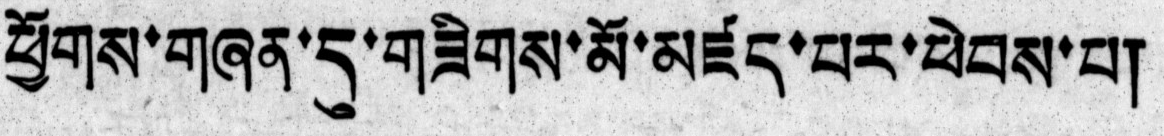ཕྱོགས་གཞན་དུ་གཟིགས་མོ་མཛད་པར་ཕེབས་པ།
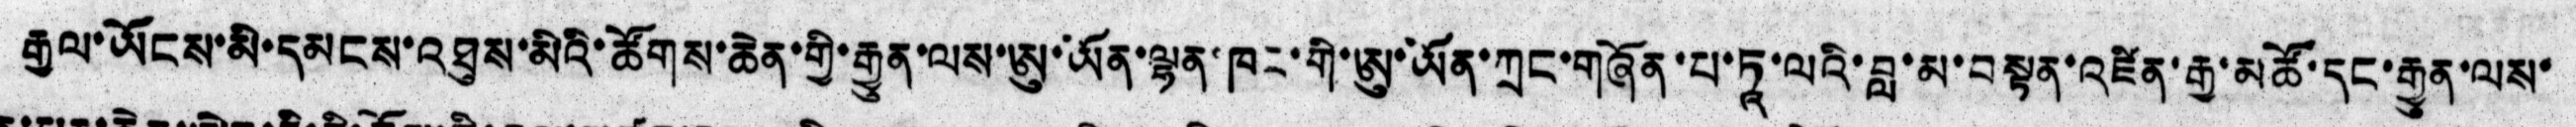རྒྱལ་ཡོངས་མི་དམངས་འཐུས་མིའི་ཚོགས་ཆེན་གྱི་རྒྱུན་ལས་ཨུ་ཡོན་ལྷན་ཁང་གི་ཨུ་ཡོན་ཀྲང་གཞོན་པ་ཏཱ་ལའི་བླ་མ་བསྟན་འཛིན་རྒྱ་མཚོ་དང་རྒྱུན་ལས་
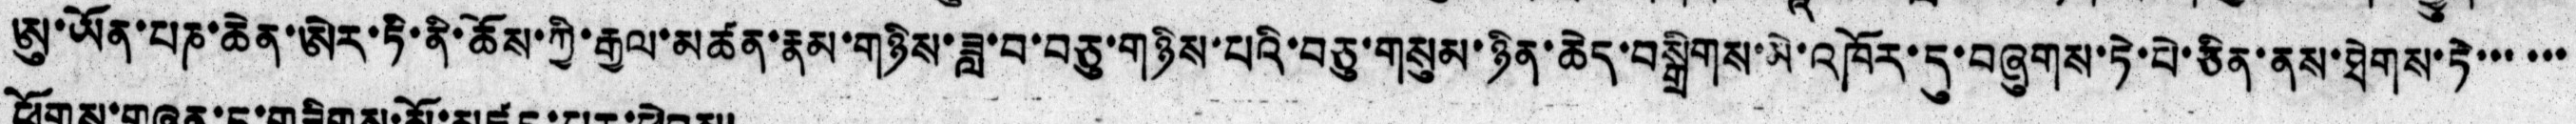ཨུ་ཡོན་པཎ་ཆེན་ཨེར་ཏི་ནི་ཆོས་ཀྱི་རྒྱལ་མཚན་རྣམ་གཉིས་ཟླ་བ་བཅུ་གཉིས་པའི་བཅུ་གསུམ་ཉིན་ཆེད་བསྒྲིགས་མེ་འཁོར་དུ་བཞུགས་ཏེ་པེ་ཅིན་ནས་ཐེགས་ཏེ་་་་་་
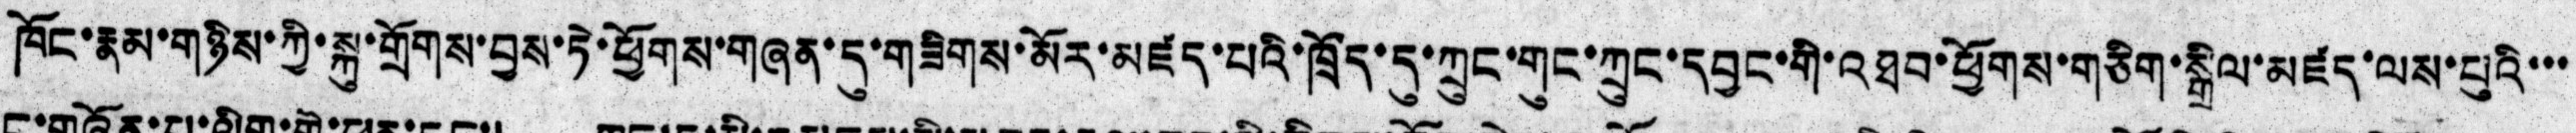ཁོང་རྣམ་གཉིས་ཀྱི་སྐུ་གྲོགས་བྱས་ཏེ་ཕྱོགས་གཞན་དུ་གཟིགས་མོར་མཛད་པའི་ཁྲོད་དུ་ཀྲུང་གུང་ཀྲུང་དབྱང་གི་འཐབ་ཕྱོགས་གཅིག་སྒྲིལ་མཛད་ལས་པུའི་་་
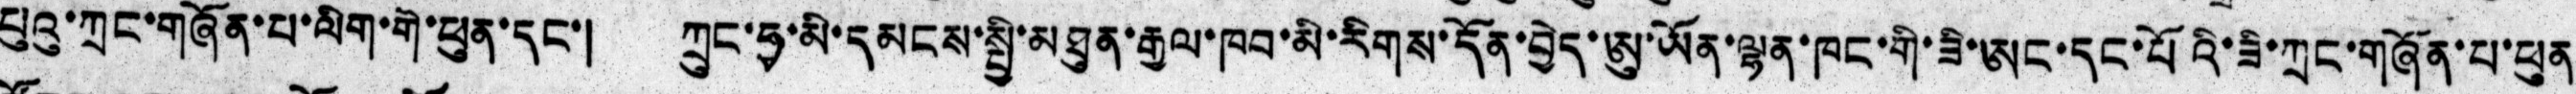པུའུ་ཀྲང་གཞོན་པ་ལིག་གེ་ཕུན་དང་། ཀྲུང་ཧྭ་མི་དམངས་སྤྱི་མཐུན་རྒྱལ་ཁབ་མི་རིགས་དོན་བྱེད་ཨུ་ཡོན་ལྷན་ཁང་གི་ཟི་ཨང་དང་པོའི་ཟི་ཀྲང་གཞོན་པ་ཕུན
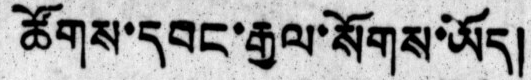ཚོགས་དབང་རྒྱལ་སོགས་ཡོད།
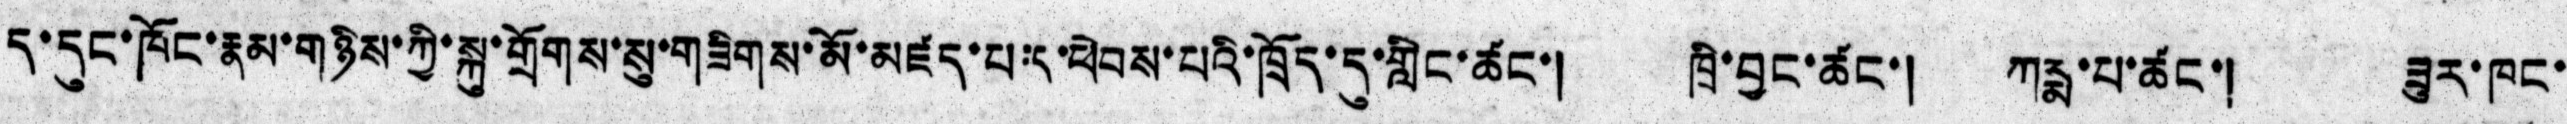དུང་ཁོང་རྣམ་གཉིས་ཀྱི་སྐུ་གྲོགས་སུ་གཟིགས་མོ་མཛད་པ་དུ་ཕེབས་པའི་ཁྲོད་དུ་གླིང་ཚང་། ཁྲི་བྱང་ཚང་། ཀརྨ་པ་ཚང་། ཟུར་ཁང་
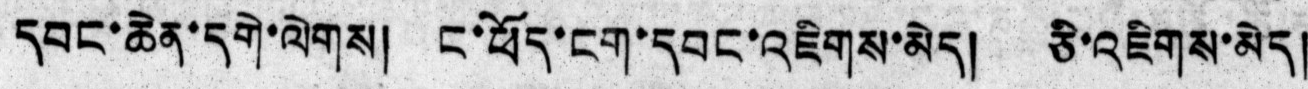དབང་ཆེན་དགེ་ལེགས། ང་ཕོད་ངག་དབང་འཇིགས་མེད། ཅི་འཇིགས་མེད།
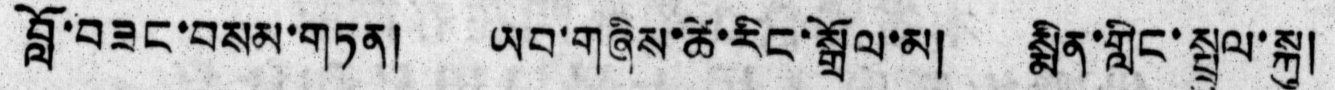བློ་བཟང་བསམ་གཏན། ཡབ་གཞིས་ཚེ་རིང་སྒྲོལ་མ། སྨིན་གླིང་སྤྲུལ་སྐུ།
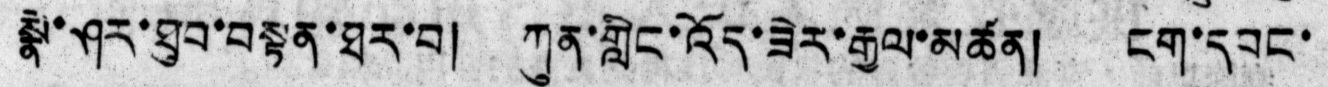སྣེ་ཤར་ཐུབ་བསྟན་ཐར་བ། ཀུན་གླིང་འོད་ཟེར་རྒྱལ་མཚན། ངག་དབང་
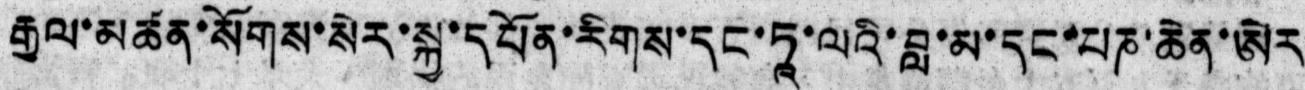རྒྱལ་མཚན་སོགས་སེར་སྐྱ་དཔོན་རིགས་དང་ཏཱ་ལའི་བླ་མ་དང་པཎ་ཆེན་ཨེར
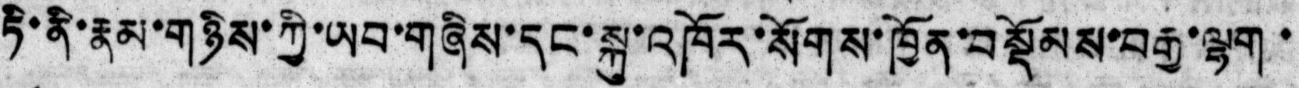ཏི་ནི་རྣམ་གཉིས་ཀྱི་ཡབ་གཞིས་དང་སྐུ་འཁོར་སོགས་ཁྱོན་བསྡོམས་བརྒྱ་ལྷག་
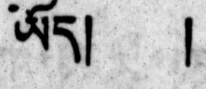ཡོད། །
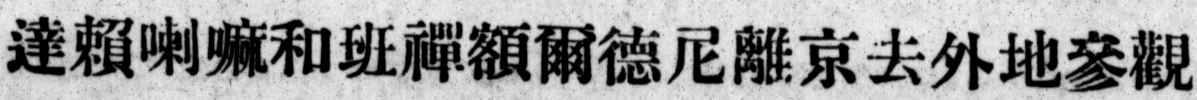達賴喇嘛和班禪額爾德尼離京去外地參觀
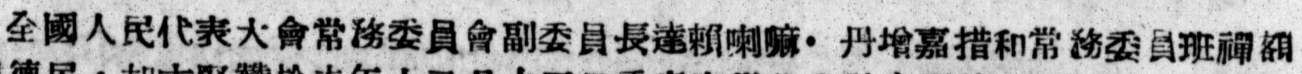全國人民代表大會常務委員會副委員長達賴喇嘛・丹增嘉措和常務委員班禪額
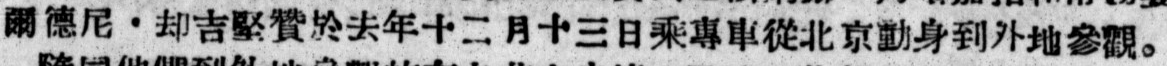爾德尼・却吉堅贊於去年十二月十三日乘專車從北京動身到外地參觀。
